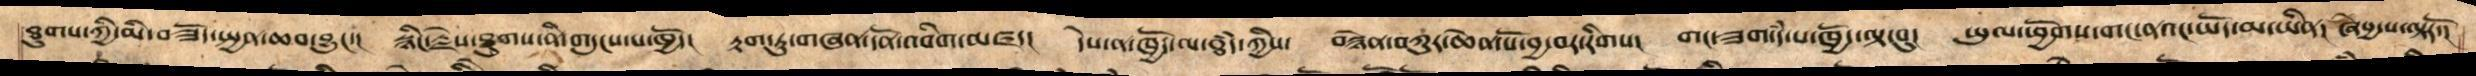ཐུགས་ཀྱི་མི་བཟོད་སྤྱན་ཆབ་བྱུང་།  སྙིང་རྗེས་ཐུགས་ནི་གདུངས་པ་ཁྱོད།  རྟག་ཏུ་གཞན་དོན་འབིག་མཛད།   དེས་ན་ཁྱོད་ལ་ཐཾད་ཀྱིས།  བསྙེན་བཀུར་ཆེན་པོ་བྱ་བར་རིགས།   གང་ཟག་དཾ་པ་ཁྱོད་ལྟ་བུ།   ཡུལ་ཕྱོགས་གང་ནའང་ཡོད་མ་ཡིན།  ཞེསྱ་པལྟརོ་།
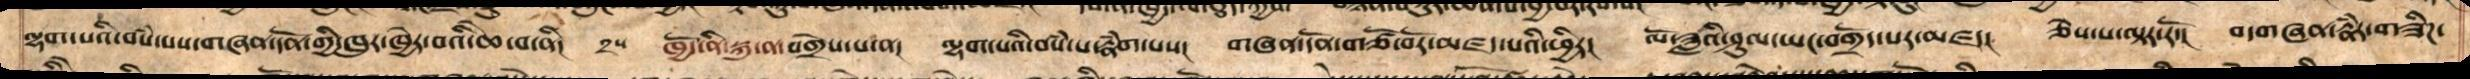ལྷག་པའི་བསཾ་པས་གཞན་དོན་གྱི་ཁུར་ཁྱེར་བའི་ཆེ་བ་ནི། ༢༥ ཁྱོད་ནི་སྐུ་ན་འགྲེས་པ་ན།  ལྷག་པའི་བསཾ་པ་རྣཾག་པས།  གཞན་དོན་གཙོ་བོར་མཛད་པའི་ཕྱིར།   ལོ་ཟླའི་ཤུལ་ཡང་བགྲོད་པར་མཛད།  ཅེས་པ་ལྟར་རོ།  བདགཞན་རྣཾར་གཟིཌ་
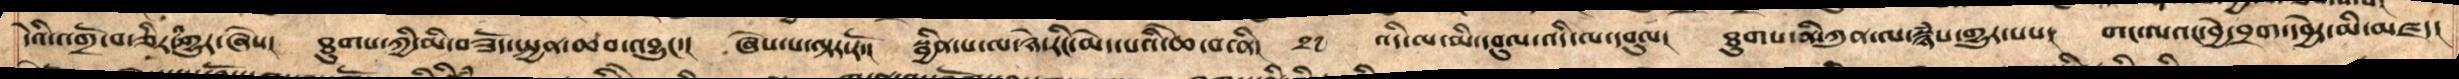དེའི་འགྲོ་བ་ཅིར་འགྱུར་ཞེས།   ཐུགས་ཀྱི་མི་བཟོད་སྤྱན་ཆབ་འབྱུང་།   ཞེས་པ་ལྟར་རོ།  སྦྱིན་པ་ལ་ཉེ་རིང་མེད་པའི་ཆེ་བ་ནི། ༢༧ འདི་ལ་མི་དབུལ་འདི་ལ་དབུལ།   ཐུགས་ནི་ཀུན་ལ་སྙཾས་གྱུར་པས།   གང་ལའང་བྱེ་བྲག་དབྱེར་མི་མཛད།
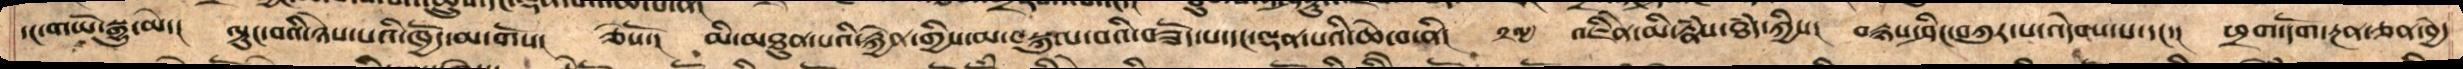དང་གཡོ་སྒྱུ་མེད།   ལྟུང་བའི་ཉེས་པའི་ཁྱོད་མ་གོས།  ཅེསོ་།   མི་མཐུན་པའི་རྐྱེན་གྱིས་མ་བསྐུལ་བའི་བཟོད་པ་དང་ལྡན་པའི་ཆེ་བ་ནི། ༢༧  འཇིནེ་མི་རྣཾས་ཐཾད་ཀྱིས།  བརྙས་ཤིང་བཀུར་པ་འདེབས་པ་དང་།  ཕྲག་དོག་རྔན་ཅན་བྱེ་
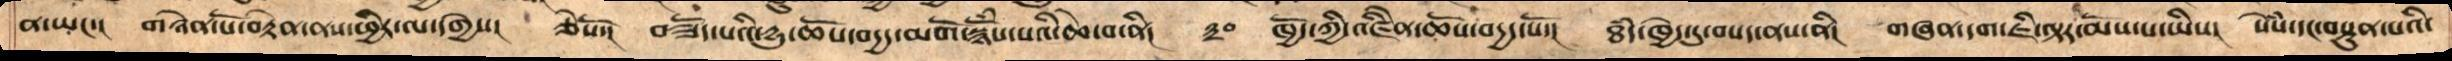ན་ཡང་།   གཉེན་པོ་བསྟེན་ནས་ཕྱིར་ལ་འགྱེས།  ཅེསོ་།  བཟོད་པའི་དྱུ་ཆོས་བདྱད་མགོ་སྙོཾས་པའི་ཆེ་བ་ནི།  ༣༠  ཁྱོད་ཀྱི་འཇིནེ་ཆོས་བདྱད་པོ།  ཐཾད་ཁྱེད་དུ་བསད་ནས་ནི།   གཞན་དག་ཇི་ལྟར་མོས་པ་ཡིས།  སེཾས་དང་བསྟུན་པའི་
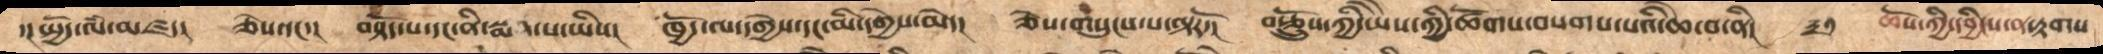་།སྤྱོད་ལཾ་མཛད།  ཅེས་དང་།  བསྟོད་པ་དང་ནི་སྨད་པ་ཡིས།  ཁྱོད་ལ་དགྱེས་དང་མི་དགྱེས་མེད།  ཅེས་གསུངས་པ་ལྟརོ་།   བརྩྲོུས་ཀྱི་ཡཻས་ཀྱི་ཚོགས་བསགས་པའི་ཆེ་བ་ནི།  ༣༡ ཆོས་ཀྱི་དབྱིངས་ན་རྟགས
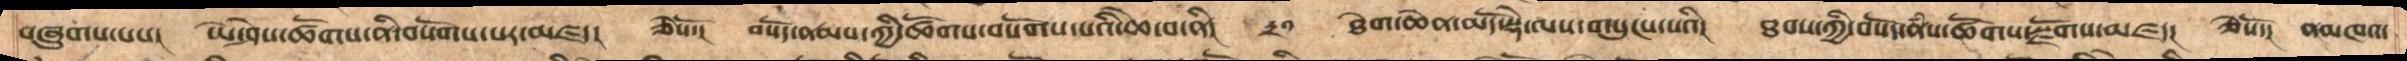བཞུགས་པས།  ཡེ་ཤེས་ཚོགས་ནི་བསོགས་པར་མཛད།  ཅེསོ།  བསོད་ནམས་ཀྱི་ཚོགས་བསོག་པའི་ཆེ་བ་ནི། ༣༡  ཐེག་ཆེན་མདོ་སྡེ་ལས་གསུངས་པའི།  ཐབས་ཀྱིས་བསོད་ནྃས་ཚོགས་སྫོགས་མཛད།   ཅེསོ།  ནམཁའ་
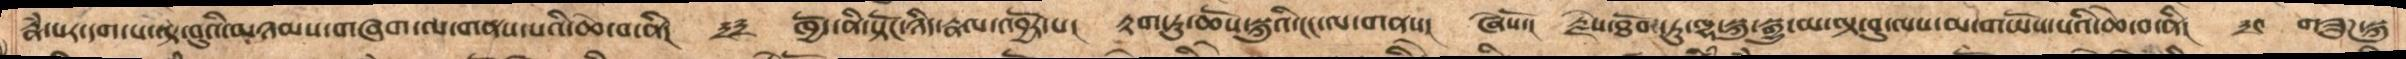རྣྃ་པར་དག་པ་ལྟ་བུའི་མཉམས་གཞག་ལ་གནས་པའི་ཆེ་བ་ནི། ༣༣  ཁྱོད་ནི་སྟོང་ཉིད་རྣལ་འབྱོར་པ།   རྟག་ཏུ་ཆོས་སྐུའི་ངང་ལ་གནས།  ཞེསོ་།  རྗེས་ཐོབ་ཏུ་ལྷ་སྐུ་སྒྱུ་མ་ལྟ་བུ་ལས་མ་གཡོས་པའི་ཆེ་བ་ནི།  ༣༤ གཟུཌ་སྐུ་
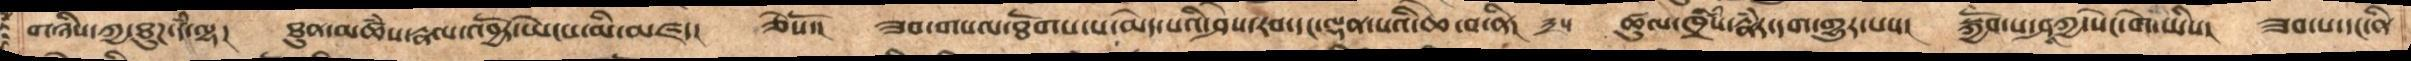གཉིས་ཀྱ་ཐུཌ་དྃ་ལྷ།  ཐུན་མཚྃས་རྣལ་འབྱོར་ཡེངས་མི་མཛད།  ཅེསོ་།  ཟབ་གསལ་ཐོགས་པ་མེད་པའི་ཤེས་རབ་དང་ལྡན་པའི་ཆེ་བ་ནི། ༣༥  ཚུལ་ཁྲིྃས་རྣཾར་དག་གྱུར་པས།  སྐྱོབ་པ་ཤཱཀྱ་སེང་གེ་ཡིས། ཟབ་པ་དང་ནི
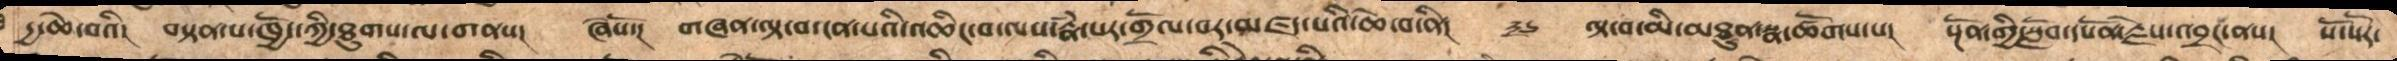དྱ་ཆེ་བའི།  བསྟན་པ་ཁྱོད་ཀྱི་ཐུགས་ལ་གནས།  ཞེསོ།   གཞན་ལྟ་བ་ངན་པའི་འཆིང་བ་ལས་རྣྃ་པར་གྲོལ་བར་མཛད་པའི་ཆེ་བ་ནི། ༣༦ ལྟ་བ་མི་མཐུན་སྣ་ཚོགས་པ།  སྔོན་གྱི་སློབ་དཔོན་རྗེས་འབྲང་ནས། སོ་སོར་
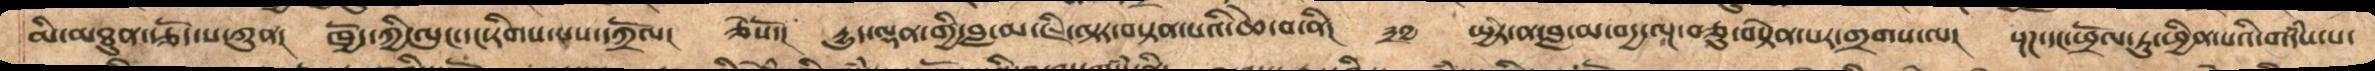མི་འཐུན་རྩོད་པ་ཀུན།  ཁྱོད་ཀྱི་ལུང་དང་རིགས་པས་དཀྲོལ། ཅེསོ།  དྱུད་ལྡན་གྱི་བླ་མ་ཇི་ལྟར་བསྟན་པའི་ཆེ་བ་ནི། ༣༧   སྤྱིར་ན་བླ་མ་ལྔ་བཅུ་བསྟེན་པར་གྲགས་ལ།  སྔཌ་དང་ཕྲོལ་ཏུ་ཕྱིན་པའི་གདྃས་པ་
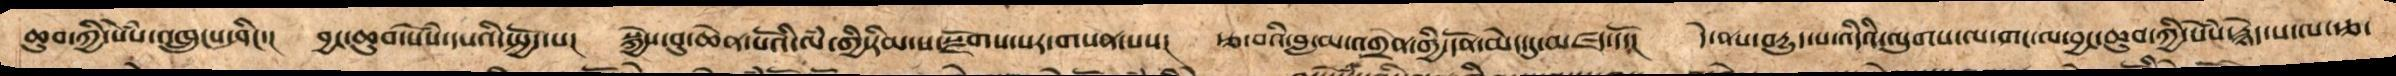ཆུབ་ཀྱི་སེྃས་འཁྲུངས་ཤིང་། བྱང་ཆུབ་སེྃས་དཔའི་སྤྱོད་པ།   སྐྱེས་བུ་ཆེན་པོའི་ལྃ་གྱི་རིམ་པ་སྫོགས་པར་གསན་པས། རྩ་བའི་བླ་མ་འགྲེན་གྱི་དོན་མེད་དུ་མཛད་དོ།  དེ་ནས་བདྱུད་པ་འདིའི་ལུགས་ལ་གང་ལ་བྱང་ཆུབ་ཀྱི་སེྃས་རྙེད་པ་ལ་རྩ་
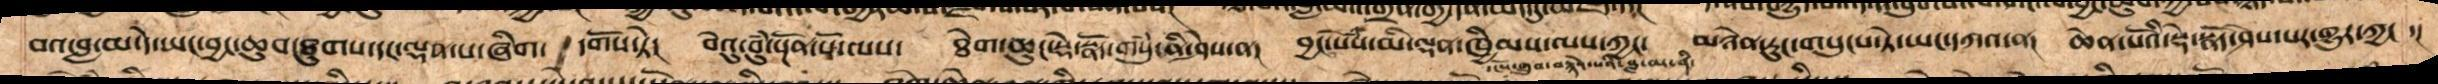བའ་བླ་མ་དེ་ཡང་བྱང་ཆུབ་ཐུགས་དང་ལྡན་པ་ཞིག་ དགོས་ཏེ། བེའུ་བུཾ་སྔོན་པོ་ལས། ཐེག་ཆུང་སྡེ་སྣོད་གསུཾ་ནི་ཤེས་ན། བྱང་སེཾས་མི་ལྡན་ཁྱིམས་ལས་ཀྱང་།  མཉེན་རུང་གསུངས་ཏེ་ཡང་དཀའ་ན། ཆེན་པོའི་སྡེ་སྣོད་ཤེས་པར་གྱུར་ཀྱང ་།
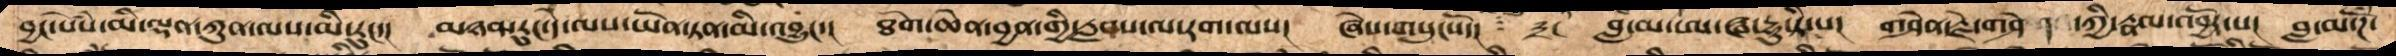བྱང་སེྃས་མི་ལྡན་ཀུན་ལས་མི་རུང་།   མཉན་རུང་དེ་ལས་ཡོན་ཏན་མི་འབྱུང་།    ཐེག་ཆེན་བྱན་གྱི་རླབས་ལ་རག་ལས་།   ཞེས་གསུངསོ།    ༣།   བླ་མ་ཨ་ཝ་དྷུ་ཏི་པ་།    གཤིན་རྗེ་གཤེ ད་ཀྱི་རྣལ་འབྱོར་པ་།   བླ་མ་ཌོཾ་
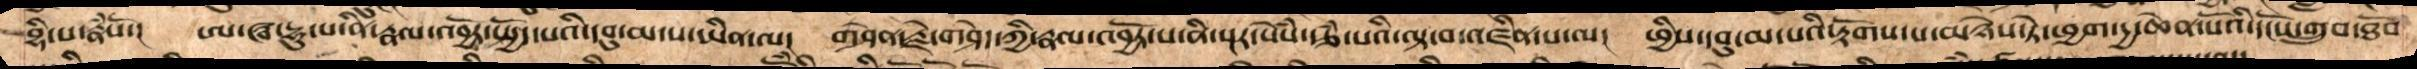བྷི་པ་རྣཾསོ་།   ཨ་ཝ་དྷུ་པ་ནི་རྣལ་འབྱོར་སྤྱོད་པའི་དབུ་མ་པ་ཡིན་ལ།  གཤིན་རྗེ་གཤེད་ཀྱི་རྣལ་འབྱོར་པ་ནི་སྔར་སེསྃ་ཙཾ་པའི་ལྟ་བ་འཛིན་པ་ལ།   ཕྱིས་དབུ་མ་པའི་རྟོགས་པ་མཉེས་ཏེ་ཕྱག་དྱ་ཆེན་པོའི་དངོས་གྲུབ་ཐོབ
